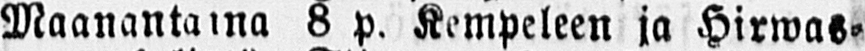Maanantaina 8 p. Kempeleen ja Hirwas-
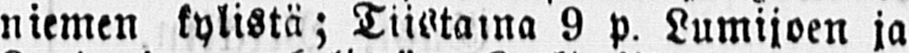niemen kylistä; Tiistaina 9 p. Lumijoen ja
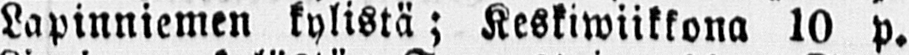Lapinniemen kylistä; Keskiwiikkona 10 p.
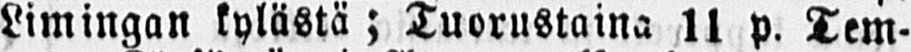Limingan kylästä; Tuorustaina 11 p. Tem-
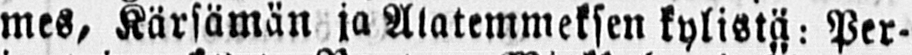mes, Kärsämän ja Alatemmeksen kylistä: Per-
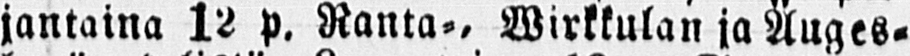jantaina 12 p. Ranta-, Wirkkulan ja Auges-
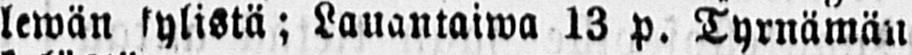lewän kylistä; Lauantaiwa 13 p. Tyrnämän
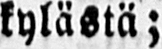kylästä;
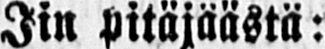Iin Pitäjäästä:
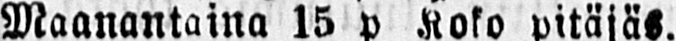Maanantaina 15 p Koko pitäjäs.
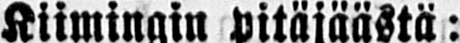Kiimingin pitäjäästä:
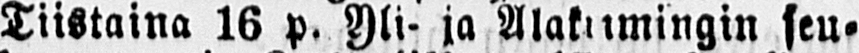Tiistaina 16 p. Yli- ia Alakiimingin seu-
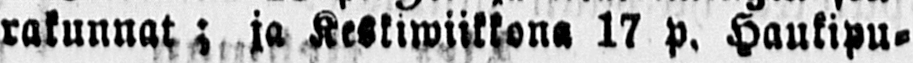rakunnat; ja Keskiwiikkona 17 p. Haukipu-
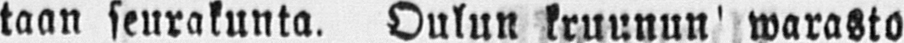taan seurakunta. Oulun kruunun warasto
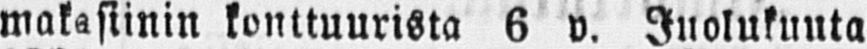makasiinin konttuurista 6 v. Juolukuuta
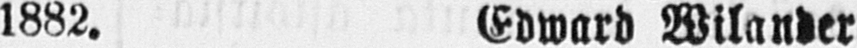1882. Edward Wilander
